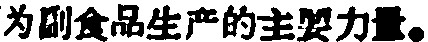为副食品生产的主要力量。
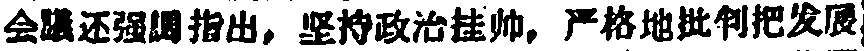会議还强調指出，坚持政治挂帅，严格地批判把发展
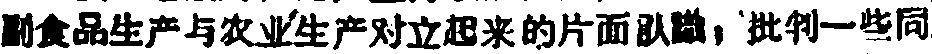副食品生产与农业生产对立起来的片面认識，批判一些同
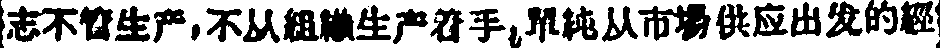志不管生产，不从組織生产着手，單純从市場供应出发的經
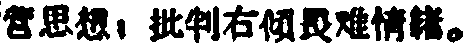营思想，批判右傾畏难情緒。
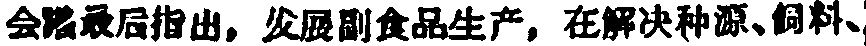会議最后指出，发展副食品生产，在解决种源、飼料、
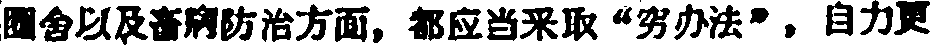圈舍以及畜病防治方面，都应当采取“穷办法”，自力更
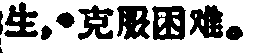生，克服困难。
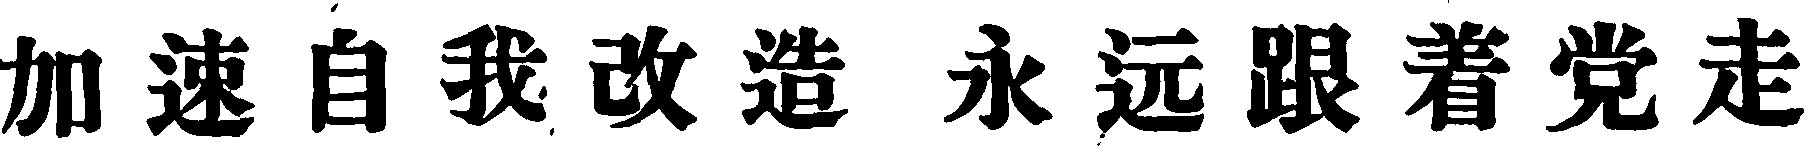加速自我改造 永远跟着党走
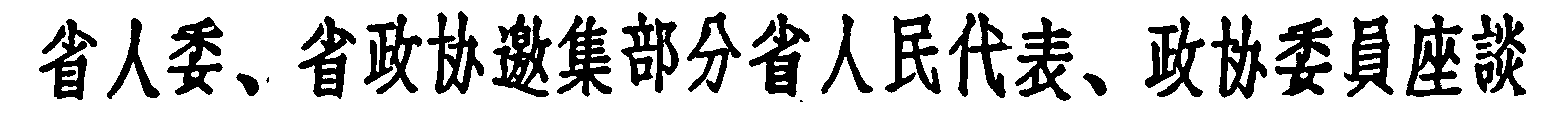省人委、省政协邀集部分省人民代表、政协委員座談
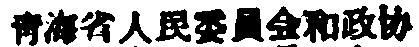靑海省人民委員会和政协
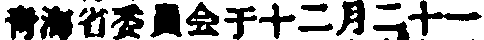靑海省委員会于十二月二十一
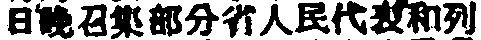日晚召集部分省人民代表和列
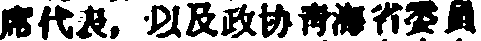席代表，以及政协靑海省委員
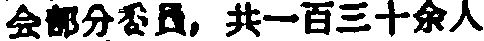会部分委員，共一百三十余人
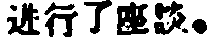进行了座談。
